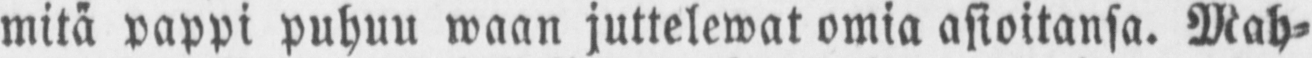mitä pappi puhuu waan juttelewat omia asioitansa. Mah-
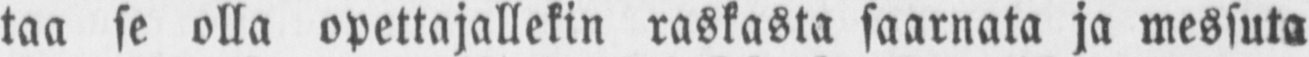taa se olla opettajallekin raskasta saarnata ja messuta
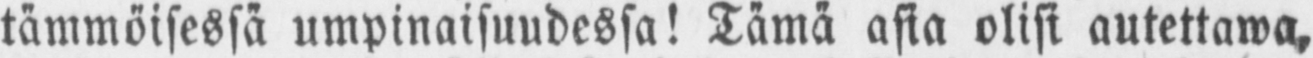tämmöisessä umpinaisuudessa! Tämä asia olisi autettawa,
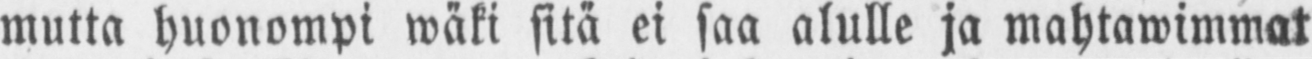mutta huonompi wäki sitä ei saa alulle ja mahtawimmat
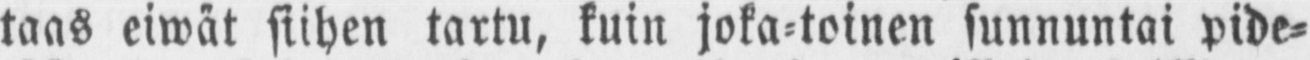taas eiwät siihen tartu, kuin joka-toinen sunnuntai pide-
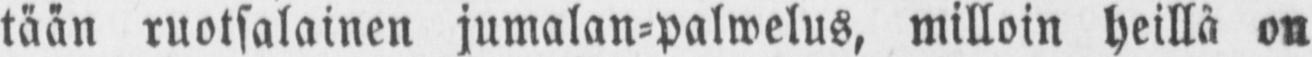tään ruotsalainen jumalan-palwelus, milloin heillä on
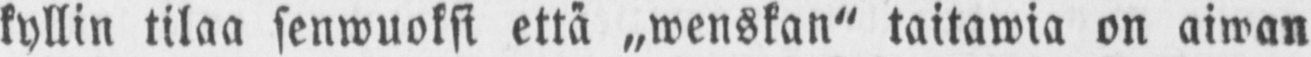kyllin tilaa senwuoksi että „wenskan" taitawia on aiwan
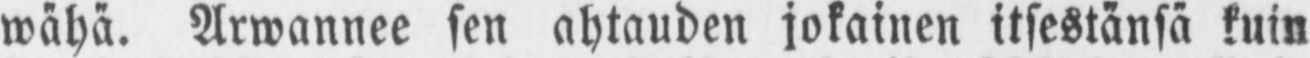wähä. Arwannee sen ahtauden jokainen itsestänsä kuin
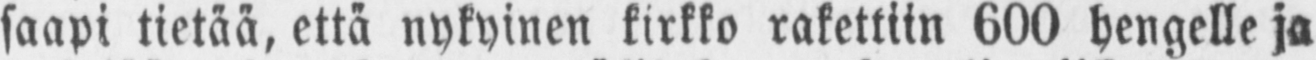saapi tietää, että nykyinen kirkko rakettiin 600 hengelle ja
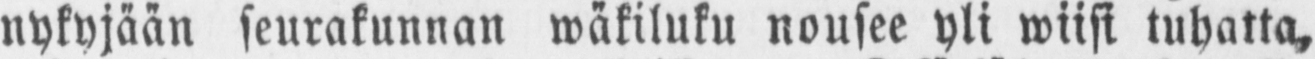nykyjään seurakunnan väkiluku nousee yli wiisi tuhatta,
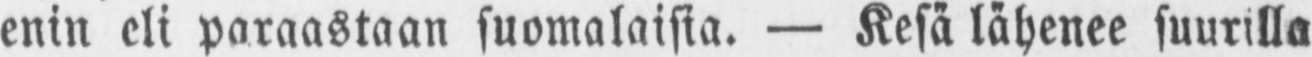enin eli paraastaan suomalaisia. — Kesä lähenee suurilla
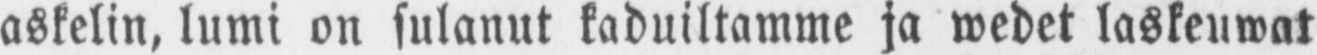askelin, lumi on sulanut kaduiltamme ja wedet laskeuwat
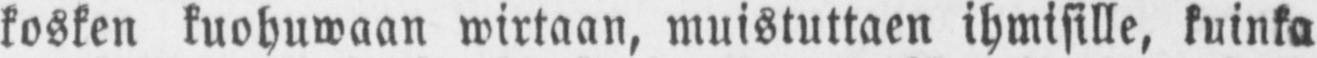kosken kuohuwaan wirtaan, muistuttaen ihmisille, kuinka
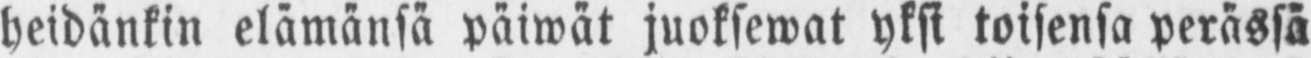heidänkin elämänsä päiwät juoksewat yksi toisensa perässä
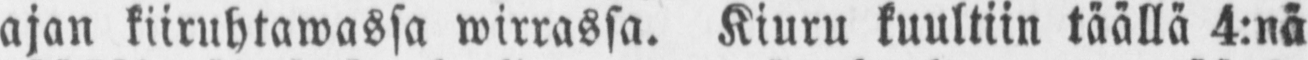ajan kiiruhtawassa wirrassa. Kiuru kuultiin täällä 4:nä
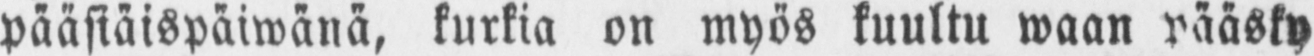pääsiäispäiwänä, kurkia on myös kuultu waan pääsky
